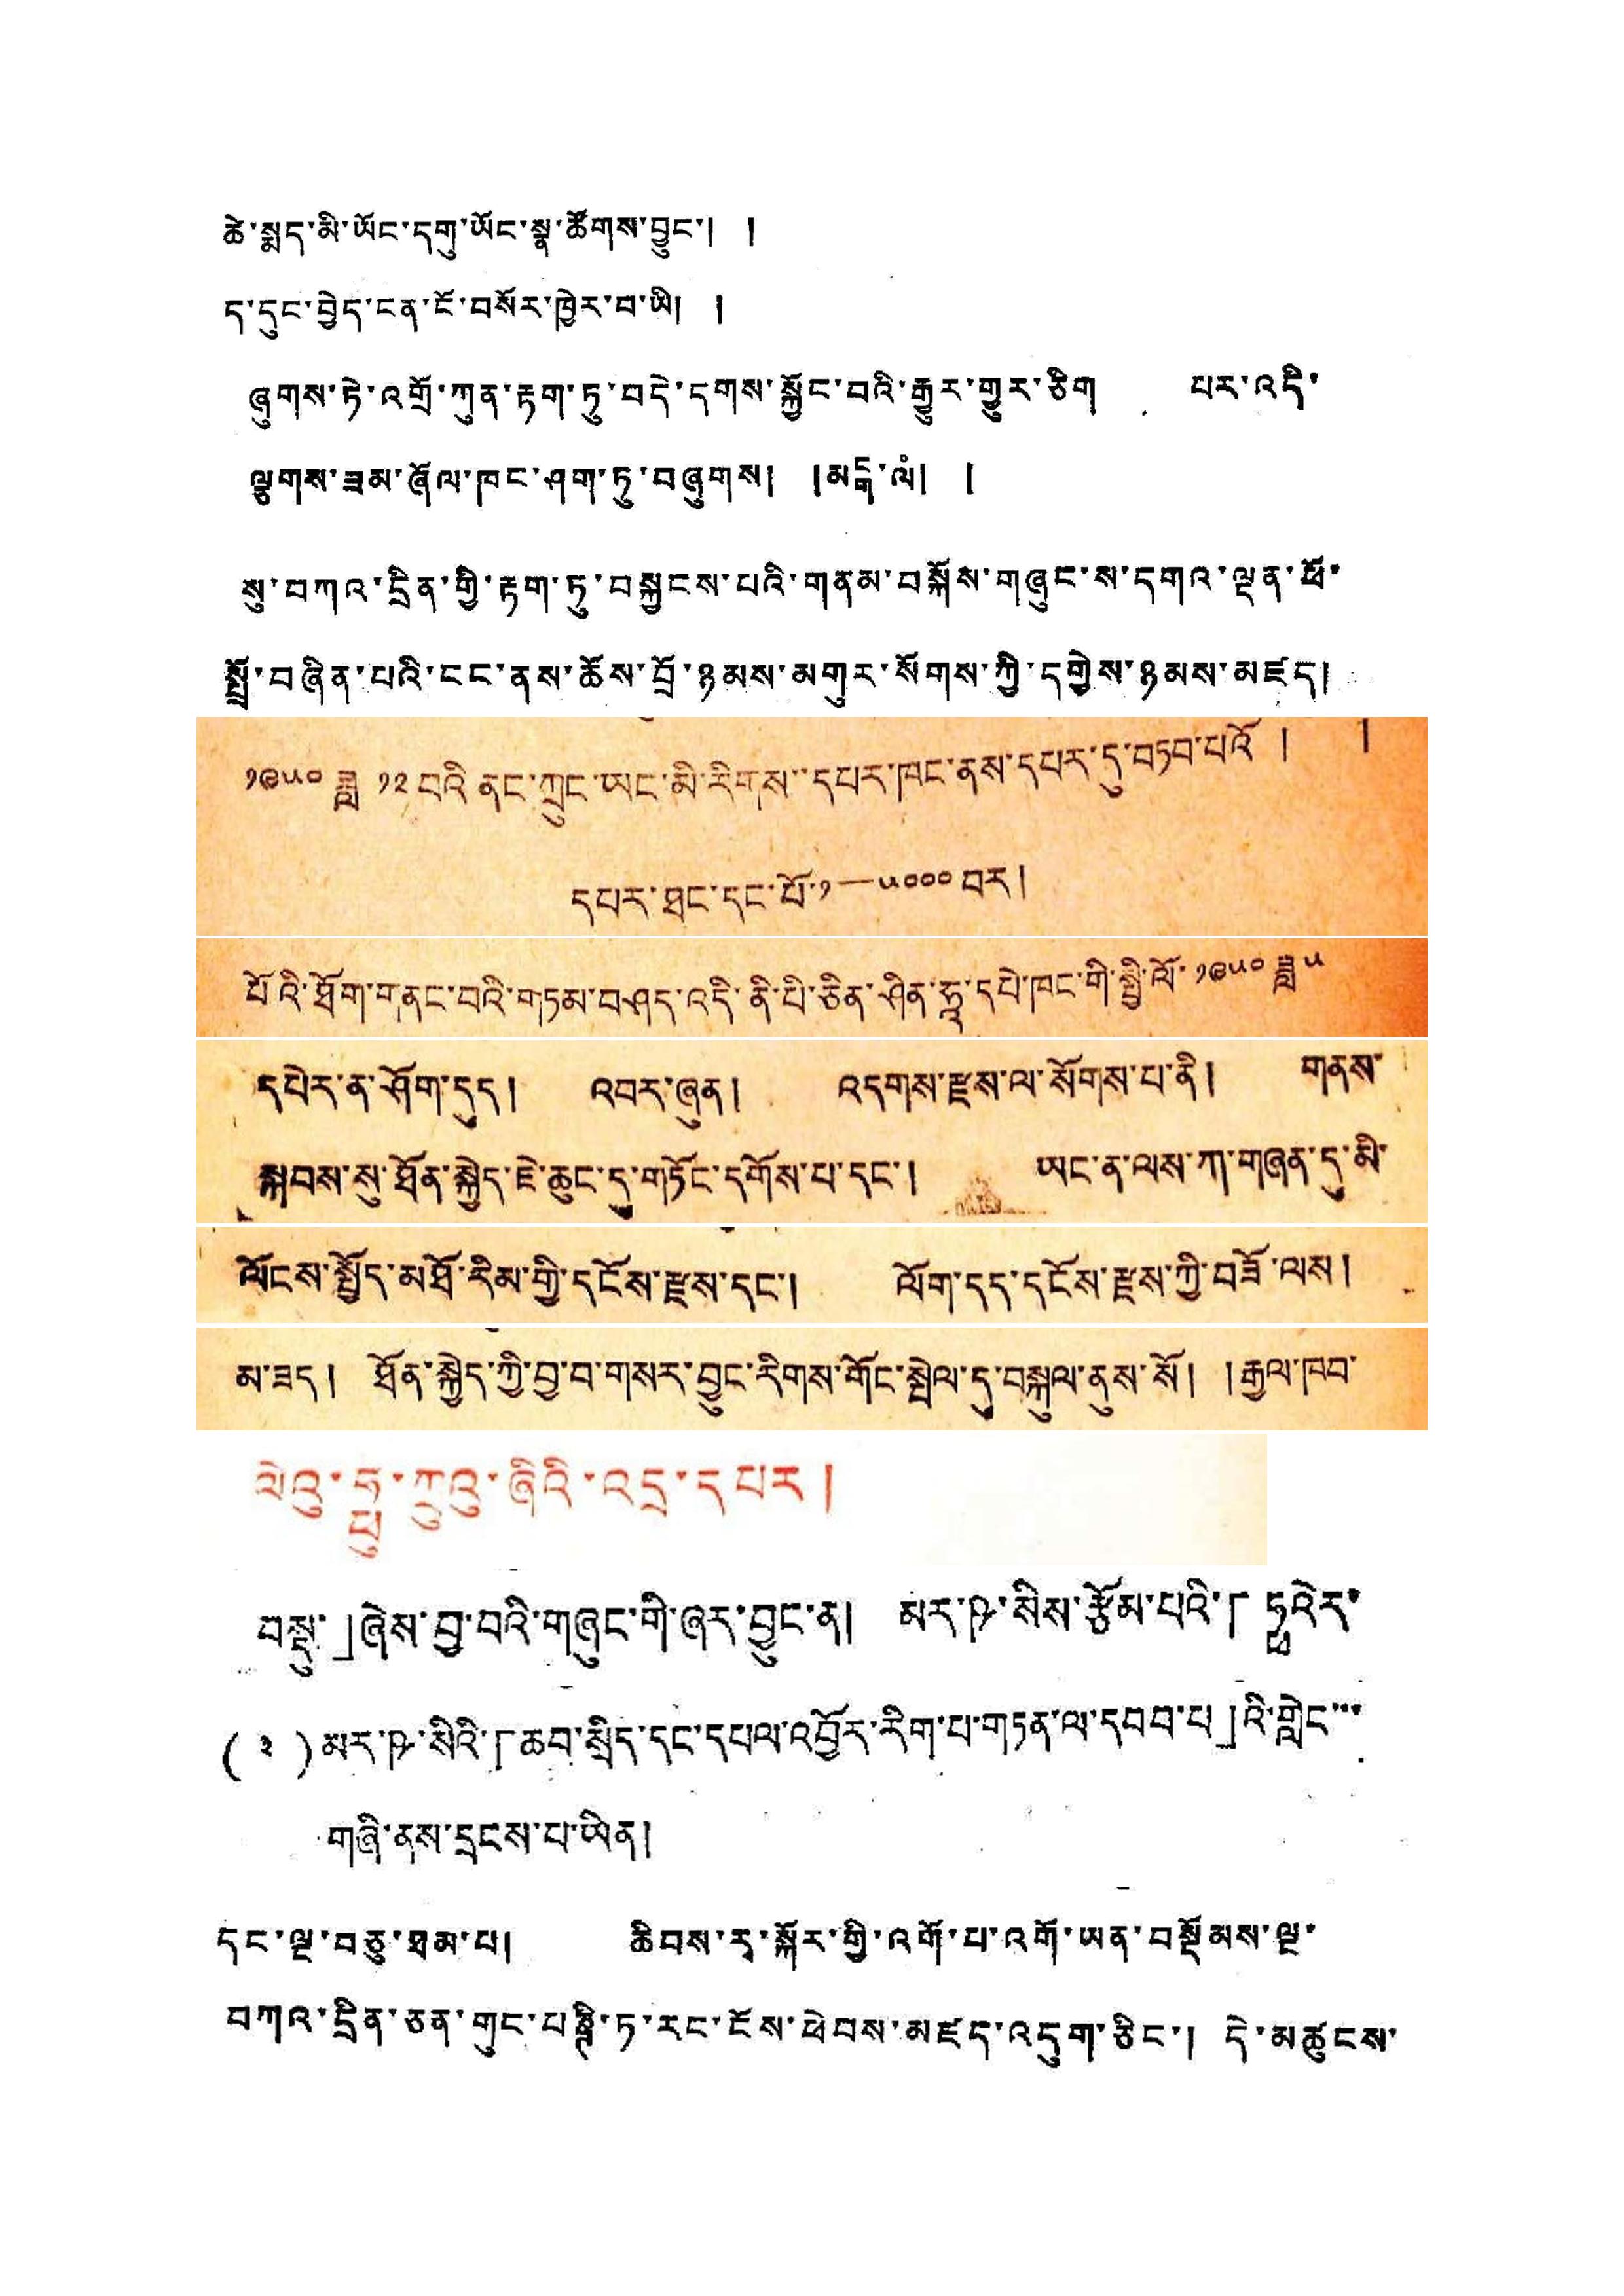ཚེ་སྨད་མི་ཡོང་དགུ་ཡོང་སྣ་ཚོགས་བྱུང་། །
ད་དུང་བྱེད་ངན་ངོ་བསོར་ཁྱེར་བ་ཡི། །
ཞུགས་ཏེ་འགྲོ་ཀུན་རྟག་ཏུ་བདེ་དགས་སྐྱོང་བའི་རྒྱུར་གྱུར་ཅིག པར་འདི་
ལྕགས་ཟམ་ཞོལ་ཁང་ཤག་ཏུ་བཞུགས། །མངྒ་ལཾ། །
སུ་བཀའ་དྲིན་གྱི་རྟག་ཏུ་བསྐྱངས་པའི་གནམ་བསྐོས་གཞུང་ས་དགའ་ལྡན་ཕོ་
སྤྲོ་བཞིན་པའི་ངང་ནས་ཆོས་བྲོ་ཉམས་མགུར་སོགས་ཀྱི་དགྱེས་ཉམས་མཛད།
༡༩༥༠ ཟླ ༡༢ བའི་ནང་ཀྲུང་ཡང་མི་རིགས་་དཔར་ཁང་ནས་དཔར་དུ་བཏབ་པའོ། །
དཔར་ཐང་དང་པོ་༡ — ༥༠༠༠ བར།
པོའི་ཐོག་གནང་བའི་གཏམ་བཤད་འདི་ནི་པི་ཅིན་ཤིན་ཧཱ་དཔེ་ཁང་གི་སྤྱི་ལོ་༡༩༥༠ ཟླ ༥
དཔེར་ན་ཤོག་དུད། འབར་ཞུན། འདགས་རྫས་ལ་སོགས་པ་ནི། གནས་
སྐབས་སུ་ཐོན་སྐྱེད་ཇེ་ཆུང་དུ་གཏོང་དགོས་པ་དང་། ཡང་ན་ལས་ཀ་གཞན་དུ་མི་
ལོངས་སྤྱོད་མཐོ་རིམ་གྱི་དངོས་རྫས་དང་། ལོག་དད་དངོས་རྫས་ཀྱི་བཟོ་ལས།
མ་ཟད། ཐོན་སྐྱེད་ཀྱི་བྱ་བ་གསར་བྱུང་རིགས་གོང་སྤེལ་དུ་བསྐུལ་ནུས་སོ། །རྒྱལ་ཁབ་
ལེའུ་ཧྥུ་ཀྲུའུ་ཞིའི་འདྲ་དཔར།
བསྡུ་」ཞེས་བྱ་བའི་གཞུང་གི་ཞར་བྱུང་ན། མར་ཥ་སིས་རྩོམ་པའི་「ཧྥའེར་
(༣) མར་ཥ་སིའི་「ཆབ་སྲིད་དང་དཔལ་འབྱོར་རིག་པ་གཏན་ལ་དབབ་པ」འི་གླེང་་་
གཞི་ནས་དྲངས་པ་ཡིན།
དང་ལྔ་བཅུ་ཐམ་པ། ཆིབས་རྭ་སྐོར་གྱི་འགོ་པ་འགོ་ཡན་བསྡོམས་ལྔ་
བཀའ་དྲིན་ཅན་གུང་པཎྚི་ཏ་རང་ངོས་ཕེབས་མཛད་འདུག་ཅིང་། དེ་མཚུངས་
